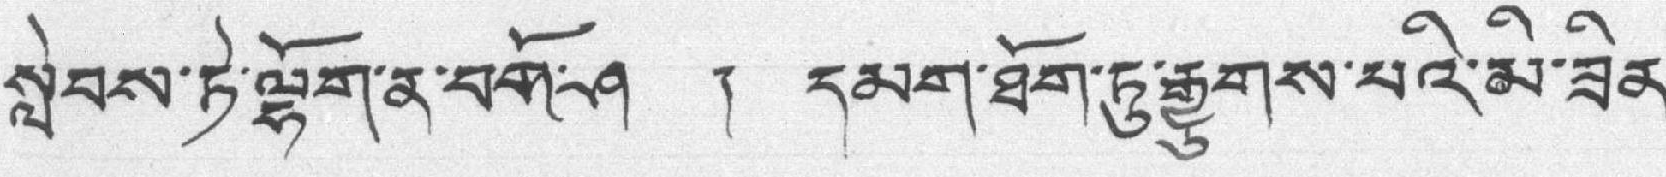སླེབས་ཏེ་ལྷོག་ན་བགོ་ཤ ། དམག་ཐོག་ཏུ་རྒྱུགས་པའི་མི་ཟིན་
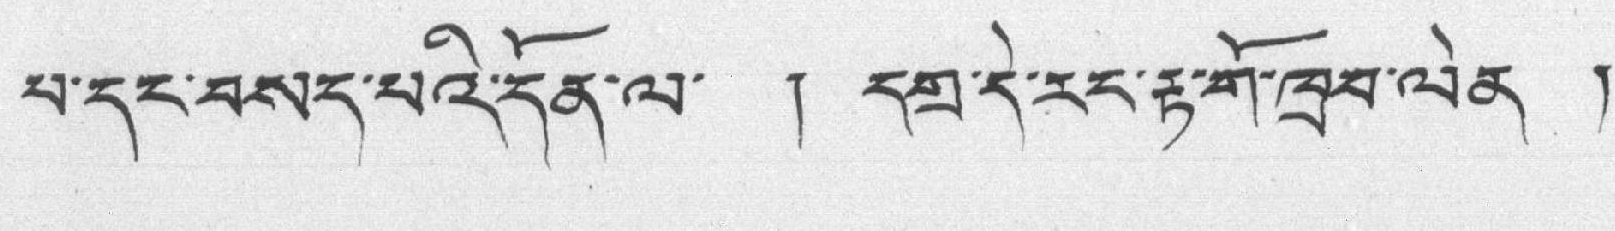པ་དང་བསད་པའི་དོན་ལ་ ། དགྲ་དེ་རང་རྟ་གོ་ཁྲབ་ལེན །
